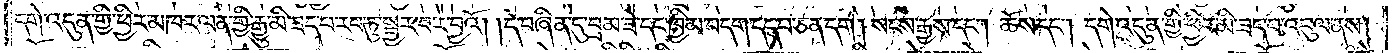དགེ་འདུན་གྱི་ཕྱིར་མཁར་ལན་གྱི་རྒྱུ་མི་ཟད་པ་རབ་ཏུ་སྦྱར་བར་བྱའོ། །དེ་བཞིན་དུ་བྲམ་ཟེ་དང་ཁྱིམ་བདག་དད་པ་ཅན་དག། སངས་རྒྱས་དང༌། ཆོས་དང༌། དགེ་འདུན་གྱི་ཕྱིར་མི་ཟད་པ་འབུལ་ནས།
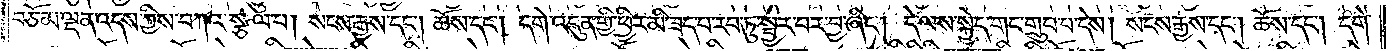བཅོམ་ལྡན་འདས་ཀྱིས་བཀའ་སྩལ་པ། སངས་རྒྱས་དང༌། ཆོས་དང༌། དགེ་འདུན་གྱི་ཕྱིར་མི་ཟད་པ་རབ་ཏུ་སྦྱར་བར་བྱ་ཞིང༌། དེ་ལས་སྐྱེད་གང་གྲུབ་པ་དེས། སངས་རྒྱས་དང༌། ཆོས་དང༌། དགེ་
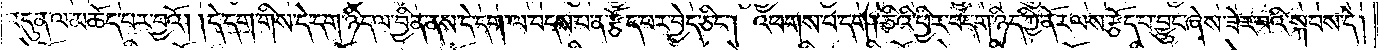འདུན་ལ་མཆོད་པར་བྱའོ། །དེ་དག་གིས་དེ་དག་ཉིད་ལ་བྱིན་ནས་དེ་དག་ལ་བདས་པ་ན་རྩོད་པར་བྱེད་ཅིང༌། འཕགས་པ་དག །ཅིའི་ཕྱིར་བདག་ཉིད་ཀྱི་ནོར་ལས་རྩོད་པ་བྱུང་ཞེས་ཟེར་བའི་སྐབས་དེ།
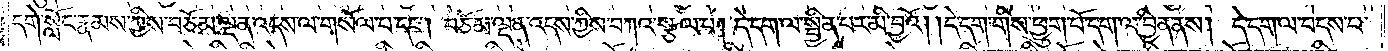དགེ་སློང་རྣམས་ཀྱིས་བཅོམ་ལྡན་འདས་ལ་གསོལ་པ་དང༌། བཅོམ་ལྡན་འདས་ཀྱིས་བཀའ་སྩལ་པ། དེ་དག་ལ་སྦྱིན་པར་མི་བྱའོ། །དེ་དག་གིས་ཕྱུག་པོ་དག་ལ་བྱིན་ནས། དེ་དག་ལ་བདས་པ་
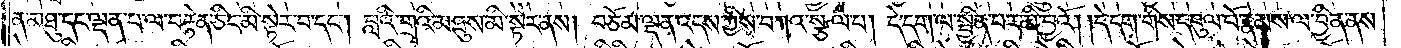ན་མཐུ་དང་ལྡན་པ་ལ་བརྟེན་ཅིང་མི་སྟེར་བ་དང༌། བླའི་གྲྭའི་མཐུས་མི་སྟེར་ནས། བཅོམ་ལྡན་འདས་ཀྱིས་བཀའ་སྩལ་པ། དེ་དག་ལ་སྦྱིན་པར་མི་བྱའོ། །དེ་དག་གིས་དབུལ་པོ་རྣམས་ལ་བྱིན་ནས་
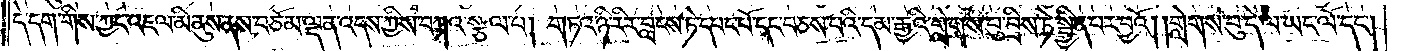དེ་དག་གིས་ཀྱང་འཇལ་མི་ནུས་ནས་བཅོམ་ལྡན་འདས་ཀྱིས་བཀའ་སྩལ་པ། གཏའ་ཉི་རིར་བླངས་ཏེ་དབང་པོ་དང་བཅས་པའི་དམ་རྒྱའི་གླེགས་བུ་བྲིས་ཏེ་སྦྱིན་པར་བྱའོ། །གླེགས་བུ་དེ་ལ་ཡང་ལོ་དང༌།
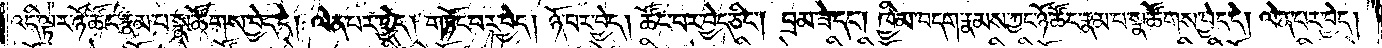འདི་ལྟར་ཉོ་ཚོང་རྣམ་པ་སྣ་ཚོགས་བྱེད་དེ། ལེན་པར་བྱེད། གཏོང་བར་བྱེད། ཉོ་བར་བྱེད། ཚོང་བར་བྱེད་ཅིང༌། བྲམ་ཟེ་དང༌། ཁྱིམ་བདག་རྣམས་ཀྱང་ཉོ་ཚོང་རྣམ་པ་སྣ་ཚོགས་བྱེད་དེ། ལེན་པར་བྱེད།
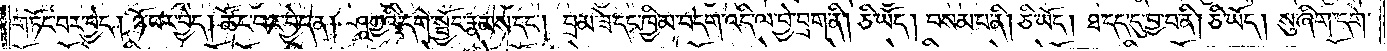གཏོང་བར་བྱེད། ཉོ་བར་བྱེད། ཚོང་བར་བྱེད་ན། ཤཱཀྱའི་དགེ་སྦྱོང་རྣམས་དང༌། བྲམ་ཟེ་དང་ཁྱིམ་བདག་འདི་ལ་བྱེ་བྲག་ནི། ཅི་ཡོད། བསམ་པ་ནི། ཅི་ཡོད། ཐ་དད་དུ་བྱ་བ་ནི། ཅི་ཡོད། སུ་ཞིག་དགེ་
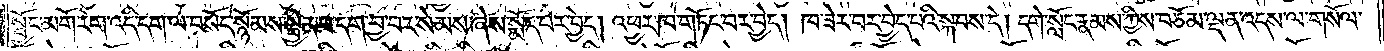སྦྱོང་མགོ་རེག་འདི་དག་ལ་བསོད་སྙོམས་སྦྱིན་པ་དག་བྱ་བར་སེམས་ཞེས་སྨོད་པར་བྱེད། འཕྱར་ཁ་གཏོང་བར་བྱེད། ཁ་ཟེར་བར་བྱེད་པའི་སྐབས་དེ། དགེ་སློང་རྣམས་ཀྱིས་བཅོམ་ལྡན་འདས་ལ་གསོལ་
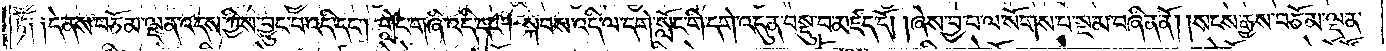ཏོ༑ ༑དེ་ནས་བཅོམ་ལྡན་འདས་ཀྱིས་བྱུང་བ་འདི་དང༌། གླེང་གཞི་འདི་དང༌། སྐབས་འདི་ལ་དགེ་སློང་གི་དགེ་འདུན་བསྡུ་བ་མཛད་དོ། །ཞེས་བྱ་བ་ལ་སོགས་པ་སྔ་མ་བཞིན་ནོ། །སངས་རྒྱས་བཅོམ་ལྡན་
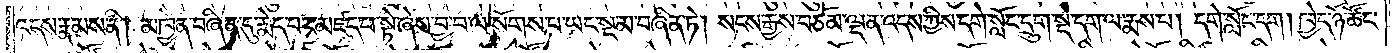འདས་རྣམས་ནི། མཁྱེན་བཞིན་དུ་རྨེད་པར་མཛད་པ་སྟེ་ཞེས་བྱ་བ་ལ་སོགས་པ་ཡང་སྔ་མ་བཞིན་ཏེ། སངས་རྒྱས་བཅོམ་ལྡན་འདས་ཀྱིས་དགེ་སློང་དྲུག་སྡེ་དག་ལ་རྨས་པ། དགེ་སློང་དག། ཁྱེད་ཉོ་ཚོང་
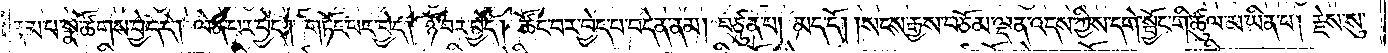རྣམ་པ་སྣ་ཚོགས་བྱེད་དེ། ལེན་པར་བྱེད། གཏོང་བར་བྱེད། ཉོ་བར་བྱེད། ཚོང་བར་བྱེད་པ་བདེན་ནམ། བཙུན་པ། མད་དོ། །སངས་རྒྱས་བཅོམ་ལྡན་འདས་ཀྱིས་དགེ་སྦྱོང་གི་ཚུལ་མ་ཡིན་པ། རྗེས་སུ་
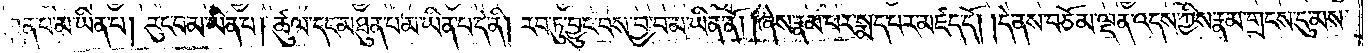མཐུན་པ་མ་ཡིན་པ། རུང་བ་མ་ཡིན་པ། ཚུལ་དང་མཐུན་པ་མ་ཡིན་པ་དེ་ནི། རབ་ཏུ་བྱུང་བས་བྱ་བ་མ་ཡིན་ནོ། །ཞེས་རྣམ་པར་སྨད་པར་མཛད་དོ། དེ་ནས་བཅོམ་ལྡན་འདས་ཀྱིས་རྣམ་གྲངས་དུ་མས་
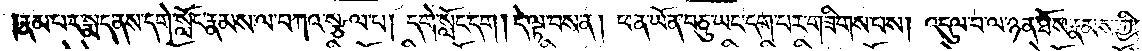རྣམ་པར་སྨད་ནས་དགེ་སློང་རྣམས་ལ་བཀའ་སྩལ་པ། དགེ་སློང་དག །དེ་ལྟ་བས་ན། ཕན་ཡོན་བཅུ་ཡང་དག་པར་གཟིགས་པས། འདུལ་བ་ལ་ཉན་ཐོས་རྣམས་ཀྱི་
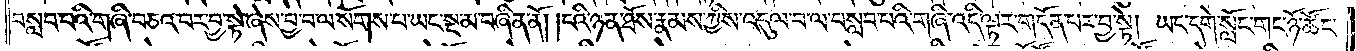བསླབ་པའི་གཞི་བཅའ་བར་བྱ་སྟེ་ཞེས་བྱ་བ་ལ་སོགས་པ་ཡང་སྔ་མ་བཞིན་ནོ། །ངའི་ཉན་ཐོས་རྣམས་ཀྱིས་འདུལ་བ་ལ་བསླབ་པའི་གཞི་འདི་ལྟར་གདོན་པར་བྱ་སྟེ། ཡང་དགེ་སློང་གང་ཉོ་ཚོང་
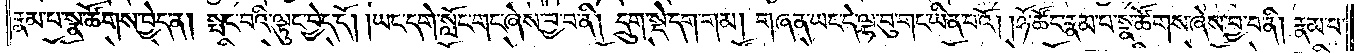རྣམ་པ་སྣ་ཚོགས་བྱེད་ན། སྤང་བའི་ལྟུང་བྱེད་དོ། །ཡང་དགེ་སློང་གང་ཞེས་བྱ་བ་ནི། དྲུག་སྡེ་དག་གམ། གཞན་ཡང་དེ་ལྟ་བུ་གང་ཡིན་པའོ། །ཉོ་ཚོང་རྣམ་པ་སྣ་ཚོགས་ཞེས་བྱ་བ་ནི། རྣམ་པ་
